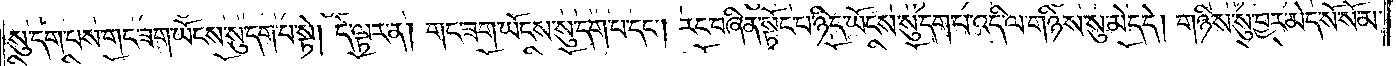སུ་དག་པས་གང་ཟག་ཡོངས་སུ་དག་པ་སྟེ། དེ་ལྟར་ན། གང་ཟག་ཡོངས་སུ་དག་པ་དང༌། རང་བཞིན་སྟོང་པ་ཉིད་ཡོངས་སུ་དག་པ་འདི་ལ་གཉིས་སུ་མེད་དེ། གཉིས་སུ་བྱར་མེད་སོ་སོ་མ་
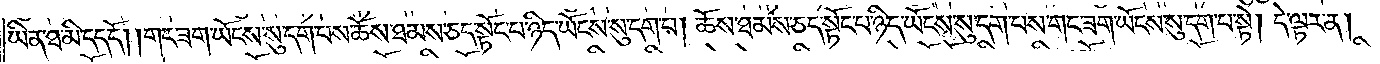ཡིན་ཐ་མི་དད་དོ། །གང་ཟག་ཡོངས་སུ་དག་པས་ཆོས་ཐམས་ཅད་སྟོང་པ་ཉིད་ཡོངས་སུ་དག་པ། ཆོས་ཐམས་ཅད་སྟོང་པ་ཉིད་ཡོངས་སུ་དག་པས་གང་ཟག་ཡོངས་སུ་དག་པ་སྟེ། དེ་ལྟར་ན།
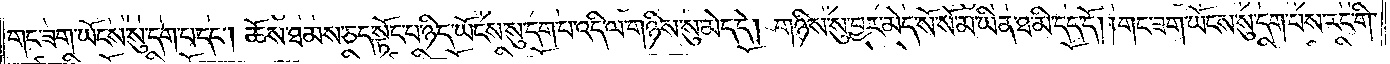གང་ཟག་ཡོངས་སུ་དག་པ་དང༌། ཆོས་ཐམས་ཅད་སྟོང་པ་ཉིད་ཡོངས་སུ་དག་པ་འདི་ལ་གཉིས་སུ་མེད་དེ། གཉིས་སུ་བྱར་མེད་སོ་སོ་མ་ཡིན་ཐ་མི་དད་དོ། །གང་ཟག་ཡོངས་སུ་དག་པས་རང་གི་
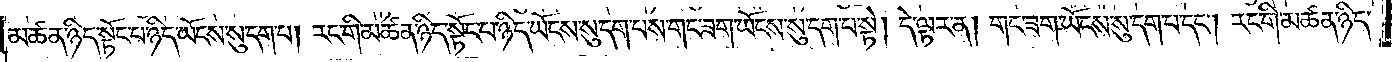མཚན་ཉིད་སྟོང་པ་ཉིད་ཡོངས་སུ་དག་པ། རང་གི་མཚན་ཉིད་སྟོང་པ་ཉིད་ཡོངས་སུ་དག་པས་གང་ཟག་ཡོངས་སུ་དག་པ་སྟེ། དེ་ལྟར་ན། གང་ཟག་ཡོངས་སུ་དག་པ་དང༌། རང་གི་མཚན་ཉིད་
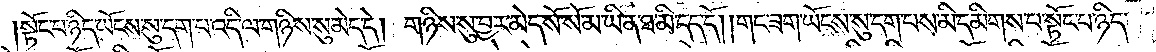སྟོང་པ་ཉིད་ཡོངས་སུ་དག་པ་འདི་ལ་གཉིས་སུ་མེད་དེ། གཉིས་སུ་བྱར་མེད་སོ་སོ་མ་ཡིན་ཐ་མི་དད་དོ། །གང་ཟག་ཡོངས་སུ་དག་པས་མི་དམིགས་པ་སྟོང་པ་ཉིད་
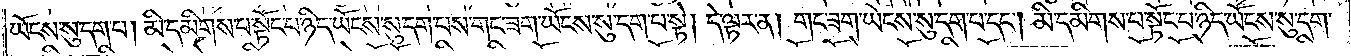ཡོངས་སུ་དག་པ། མི་དམིགས་པ་སྟོང་པ་ཉིད་ཡོངས་སུ་དག་པས་གང་ཟག་ཡོངས་སུ་དག་པ་སྟེ། དེ་ལྟར་ན། གང་ཟག་ཡོངས་སུ་དག་པ་དང༌། མི་དམིགས་པ་སྟོང་པ་ཉིད་ཡོངས་སུ་དག་
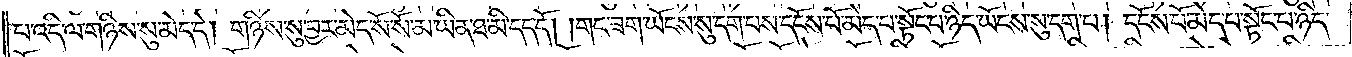པ་འདི་ལ་གཉིས་སུ་མེད་དེ། གཉིས་སུ་བྱར་མེད་སོ་སོ་མ་ཡིན་ཐ་མི་དད་དོ། །གང་ཟག་ཡོངས་སུ་དག་པས་དངོས་པོ་མེད་པ་སྟོང་པ་ཉིད་ཡོངས་སུ་དག་པ། དངོས་པོ་མེད་པ་སྟོང་པ་ཉིད་
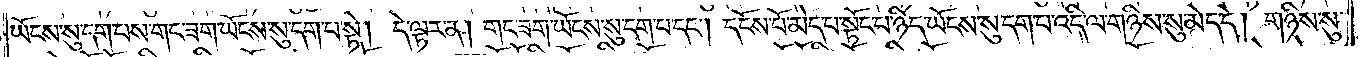ཡོངས་སུ་དག་པས་གང་ཟག་ཡོངས་སུ་དག་པ་སྟེ། དེ་ལྟར་ན། གང་ཟག་ཡོངས་སུ་དག་པ་དང༌། དངོས་པོ་མེད་པ་སྟོང་པ་ཉིད་ཡོངས་སུ་དག་པ་འདི་ལ་གཉིས་སུ་མེད་དེ། གཉིས་སུ་
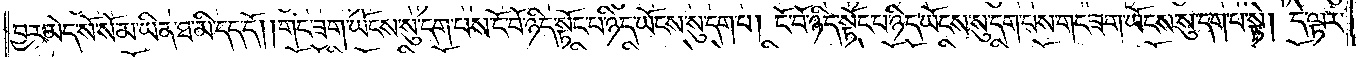བྱར་མེད་སོ་སོ་མ་ཡིན་ཐ་མི་དད་དོ། །གང་ཟག་ཡོངས་སུ་དག་པས་ངོ་བོ་ཉིད་སྟོང་པ་ཉིད་ཡོངས་སུ་དག་པ། ངོ་བོ་ཉིད་སྟོང་པ་ཉིད་ཡོངས་སུ་དག་པས་གང་ཟག་ཡོངས་སུ་དག་པ་སྟེ། དེ་ལྟར་
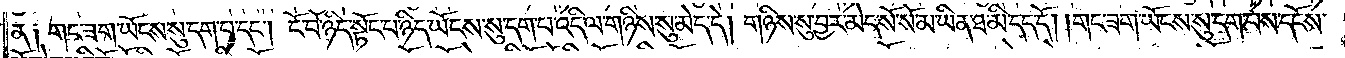ན༑ གང་ཟག་ཡོངས་སུ་དག་པ་དང༌། ངོ་བོ་ཉིད་སྟོང་པ་ཉིད་ཡོངས་སུ་དག་པ་འདི་ལ་གཉིས་སུ་མེད་དེ། གཉིས་སུ་བྱར་མེད་སོ་སོ་མ་ཡིན་ཐ་མི་དད་དོ། །གང་ཟག་ཡོངས་སུ་དག་པས་དངོས་
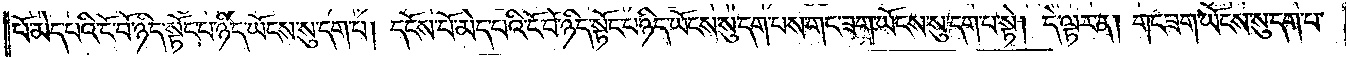པོ་མེད་པའི་ངོ་བོ་ཉིད་སྟོང་པ་ཉིད་ཡོངས་སུ་དག་པ། དངོས་པོ་མེད་པའི་ངོ་བོ་ཉིད་སྟོང་པ་ཉིད་ཡོངས་སུ་དག་པས་གང་ཟག་ཡོངས་སུ་དག་པ་སྟེ། དེ་ལྟར་ན། གང་ཟག་ཡོངས་སུ་དག་པ་
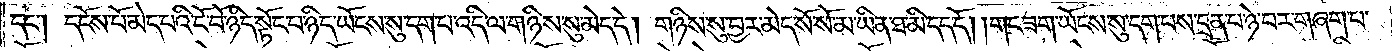དང༌། དངོས་པོ་མེད་པའི་ངོ་བོ་ཉིད་སྟོང་པ་ཉིད་ཡོངས་སུ་དག་པ་འདི་ལ་གཉིས་སུ་མེད་དེ། གཉིས་སུ་བྱར་མེད་སོ་སོ་མ་ཡིན་ཐ་མི་དད་དོ། །གང་ཟག་ཡོངས་སུ་དག་པས་དྲན་པ་ཉེ་བར་གཞག་པ་
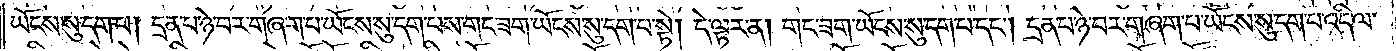ཡོངས་སུ་དག་པ། དྲན་པ་ཉེ་བར་གཞག་པ་ཡོངས་སུ་དག་པས་གང་ཟག་ཡོངས་སུ་དག་པ་སྟེ། དེ་ལྟར་ན། གང་ཟག་ཡོངས་སུ་དག་པ་དང༌། དྲན་པ་ཉེ་བར་གཞག་པ་ཡོངས་སུ་དག་པ་འདི་ལ་
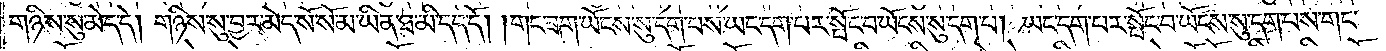གཉིས་སུ་མེད་དེ། གཉིས་སུ་བྱར་མེད་སོ་སོ་མ་ཡིན་ཐ་མི་དད་དོ། །གང་ཟག་ཡོངས་སུ་དག་པས་ཡང་དག་པར་སྤོང་བ་ཡོངས་སུ་དག་པ། ཡང་དག་པར་སྤོང་བ་ཡོངས་སུ་དག་པས་གང་
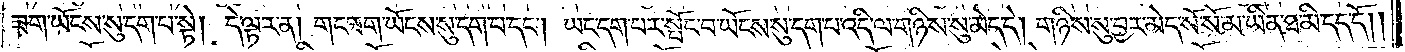ཟག་ཡོངས་སུ་དག་པ་སྟེ། དེ་ལྟར་ན། གང་ཟག་ཡོངས་སུ་དག་པ་དང༌། ཡང་དག་པར་སྤོང་བ་ཡོངས་སུ་དག་པ་འདི་ལ་གཉིས་སུ་མེད་དེ། གཉིས་སུ་བྱར་མེད་སོ་སོ་མ་ཡིན་ཐ་མི་དད་དོ༎
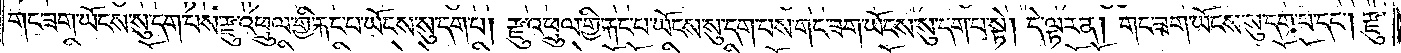གང་ཟག་ཡོངས་སུ་དག་པས་རྫུ་འཕྲུལ་གྱི་རྐང་པ་ཡོངས་སུ་དག་པ། རྫུ་འཕྲུལ་གྱི་རྐང་པ་ཡོངས་སུ་དག་པས་གང་ཟག་ཡོངས་སུ་དག་པ་སྟེ། དེ་ལྟར་ན། གང་ཟག་ཡོངས་སུ་དག་པ་དང༌། རྫུ་
